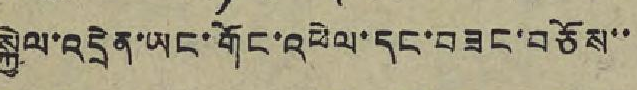སྐྱེལ་འདྲེན་ཡང་གོང་འཕེལ་དང་བཟང་བཅོས་་
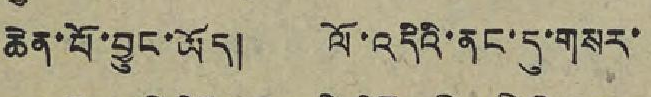ཆེན་པོ་བྱུང་ཡོད། ལོ་འདིའི་ནང་དུ་གསར་
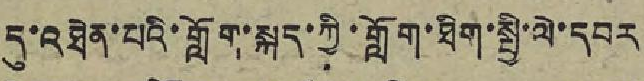དུ་འཐེན་པའི་གློག་སྐད་ཀྱི་གློག་ཐིག་སྤྱི་ལེ་དབར
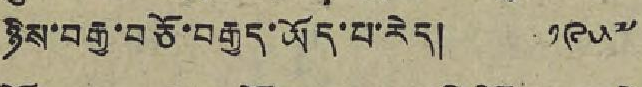ཉིས་བརྒྱ་བཅོ་བརྒྱད་ཡོད་པ་རེད། ༡༩༥༧
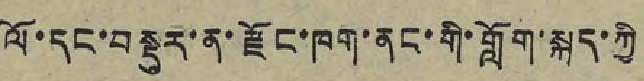ལོ་དང་བསྡུར་ན་རྫོང་ཁག་ནང་གི་གློག་སྐད་ཀྱི
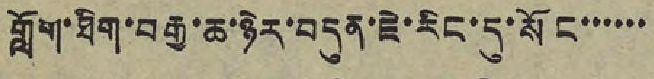གློག་ཐིག་བརྒྱ་ཆ་ཉེར་བདུན་ཇེ་རིང་དུ་སོང་་་་་་
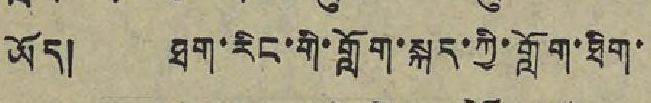ཡོད། ཐག་རིང་གི་གློག་སྐད་ཀྱི་གློག་ཐིག་
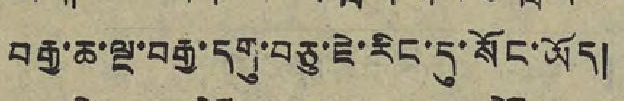བརྒྱ་ཆ་ལྔ་བརྒྱ་དགུ་བཅུ་ཇེ་རིང་དུ་སོང་ཡོད།
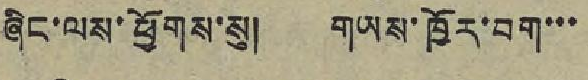ཞིང་ལས་ཕྱོགས་སུ། གཡས་ཁྱོར་བག་་་
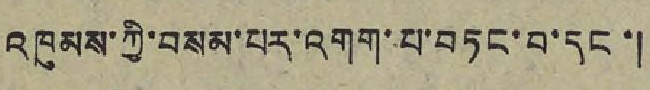འཁུམས་ཀྱི་བསམ་པར་འགག་པ་བཏང་བ་དང་།
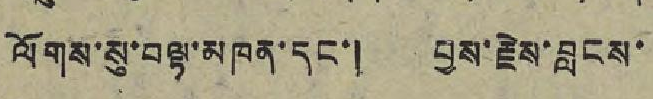ལོགས་སུ་བལྟ་མཁན་དང་། བྱས་རྗེས་བླངས་
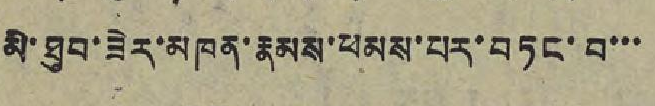མི་ཐུབ་ཟེར་མཁན་རྣམས་ཕམས་པར་བཏང་བ་་་
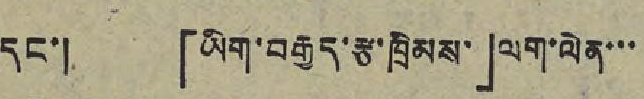དང་། 「ཡིག་བརྒྱད་རྩ་ཁྲིམས་」ལག་ལེན་་་
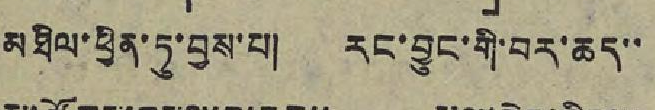མཐིལ་ཕྱིན་ཏུ་བྱས་པ། རང་བྱུང་གི་བར་ཆད་་
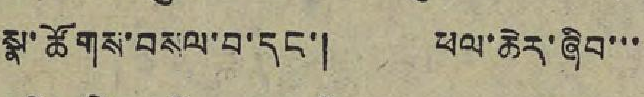སྣ་ཚོགས་བསལ་བ་དང་། ཕལ་ཆེར་ཞིབ་་་
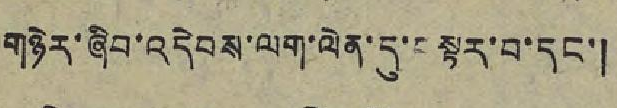གཉེར་ཞིབ་འདེབས་ལག་ལེན་དུ་བསྟར་བ་དང་།
